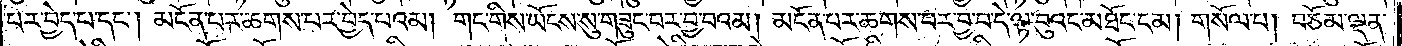པར་བྱེད་པ་དང༌། མངོན་པར་ཆགས་པར་བྱེད་པའམ། གང་གིས་ཡོངས་སུ་གཟུང་བར་བྱ་བའམ། མངོན་པར་ཆགས་པར་བྱ་བ་དེ་ལྟ་བུའང་མཐོང་ངམ། གསོལ་པ། བཅོམ་ལྡན་
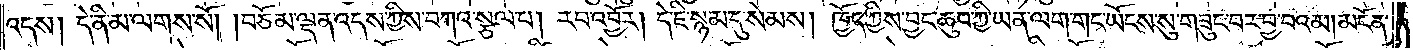འདས། དེ་ནི་མ་ལགས་སོ། །བཅོམ་ལྡན་འདས་ཀྱིས་བཀའ་སྩལ་པ། རབ་འབྱོར། དེ་ཇི་སྙམ་དུ་སེམས། ཁྱོད་ཀྱིས་བྱང་ཆུབ་ཀྱི་ཡན་ལག་གང་ཡོངས་སུ་གཟུང་བར་བྱ་བའམ། མངོན་
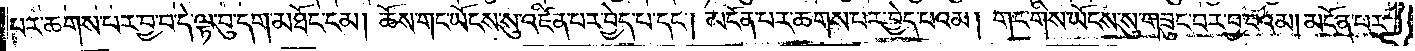པར་ཆགས་པར་བྱ་བ་དེ་ལྟ་བུ་དག་མཐོང་ངམ། ཆོས་གང་ཡོངས་སུ་འཛིན་པར་བྱེད་པ་དང༌། མངོན་པར་ཆགས་པར་བྱེད་བའམ། གང་གིས་ཡོངས་སུ་གཟུང་བར་བྱ་བའམ། མངོན་པར་
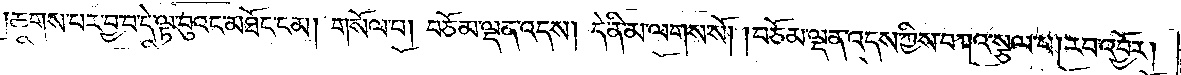ཆགས་པར་བྱ་བ་དེ་ལྟ་བུའང་མཐོང་ངམ། གསོལ་པ། བཅོམ་ལྡན་འདས། དེ་ནི་མ་ལགས་སོ། །བཅོམ་ལྡན་འདས་ཀྱིས་བཀའ་སྩལ་པ། རབ་འབྱོར།
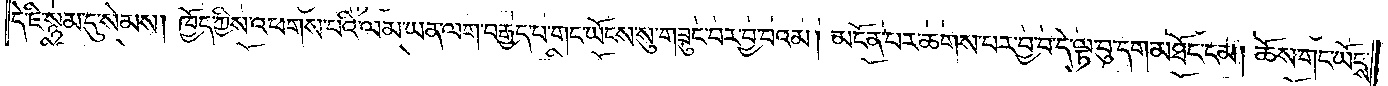དེ་ཇི་སྙམ་དུ་སེམས། ཁྱོད་ཀྱིས་འཕགས་པའི་ལམ་ཡན་ལག་བརྒྱད་པ་གང་ཡོངས་སུ་གཟུང་བར་བྱ་བའམ། མངོན་པར་ཆགས་པར་བྱ་བ་དེ་ལྟ་བུ་དག་མཐོང་ངམ། ཆོས་གང་ཡོངས་
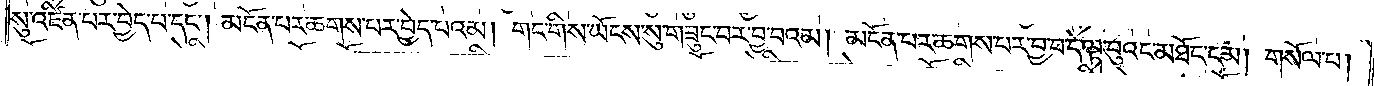སུ་འཛིན་པར་བྱེད་པ་དང༌། མངོན་པར་ཆགས་པར་བྱེད་པའམ། གང་གིས་ཡོངས་སུ་གཟུང་བར་བྱ་བའམ། མངོན་པར་ཆགས་པར་བྱ་བ་དེ་ལྟ་བུའང་མཐོང་ངམ། གསོལ་པ།
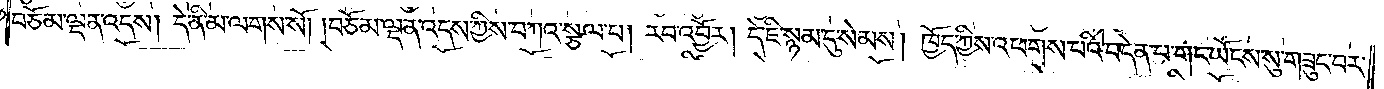བཅོམ་ལྡན་འདས། དེ་ནི་མ་ལགས་སོ། །བཅོམ་ལྡན་འདས་ཀྱིས་བཀའ་སྩལ་པ། རབ་འབྱོར། དེ་ཇི་སྙམ་དུ་སེམས། ཁྱོད་ཀྱིས་འཕགས་པའི་བདེན་པ་གང་ཡོངས་སུ་གཟུང་བར་
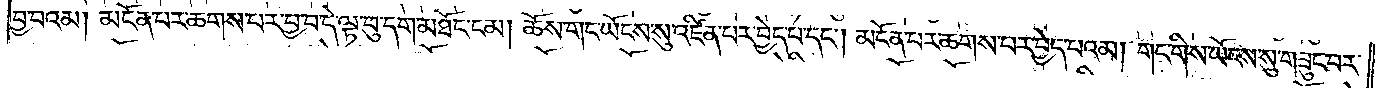བྱ་བའམ། མངོན་པར་ཆགས་པར་བྱ་བ་དེ་ལྟ་བུ་དག་མཐོང་ངམ། ཆོས་གང་ཡོངས་སུ་འཛིན་པར་བྱེད་པ་དང༌། མངོན་པར་ཆགས་པར་བྱེད་པའམ། གང་གིས་ཡོངས་སུ་གཟུང་བར་
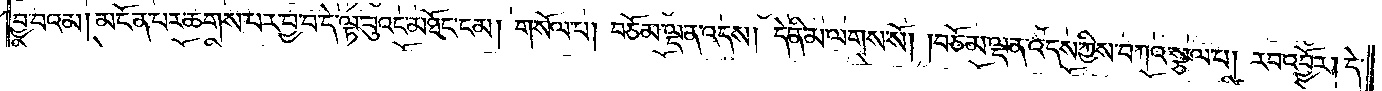བྱ་བའམ། མངོན་པར་ཆགས་པར་བྱ་བ་དེ་ལྟ་བུའང་མཐོང་ངམ། གསོལ་པ། བཅོམ་ལྡན་འདས། དེ་ནི་མ་ལགས་སོ། །བཅོམ་ལྡན་འདས་ཀྱིས་བཀའ་སྩལ་པ། རབ་འབྱོར། དེ་
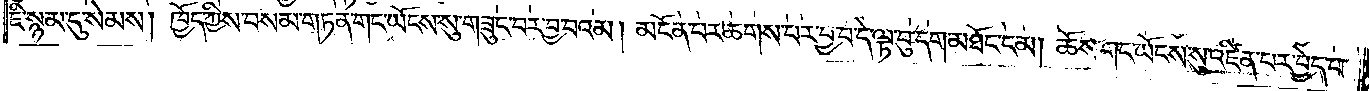ཇི་སྙམ་དུ་སེམས། ཁྱོད་ཀྱིས་བསམ་གཏན་གང་ཡོངས་སུ་གཟུང་བར་བྱ་བའམ། མངོན་པར་ཆགས་པར་བྱ་བ་དེ་ལྟ་བུ་དག་མཐོང་ངམ། ཆོས་གང་ཡོངས་སུ་འཛིན་པར་བྱེད་པ་
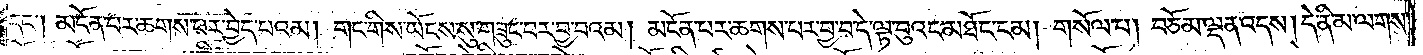དང༌། མངོན་པར་ཆགས་པར་བྱེད་པའམ། གང་གིས་ཡོངས་སུ་གཟུང་བར་བྱ་བའམ། མངོན་པར་ཆགས་པར་བྱ་བ་དེ་ལྟ་བུའང་མཐོང་ངམ། གསོལ་པ། བཅོམ་ལྡན་འདས། དེ་ནི་མ་ལགས་
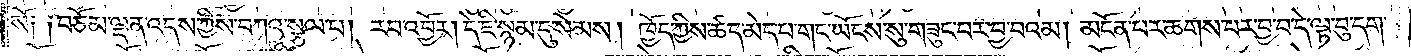སོ། །བཅོམ་ལྡན་འདས་ཀྱིས་བཀའ་སྩལ་པ། རབ་འབྱོར། དེ་ཇི་སྙམ་དུ་སེམས། ཁྱོད་ཀྱིས་ཚད་མེད་པ་གང་ཡོངས་སུ་གཟུང་བར་བྱ་བའམ། མངོན་པར་ཆགས་པར་བྱ་བ་དེ་ལྟ་བུ་དག་
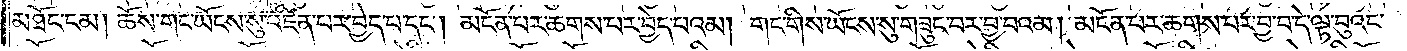མཐོང་ངམ། ཆོས་གང་ཡོངས་སུ་འཛིན་པར་བྱེད་པ་དང༌། མངོན་པར་ཆགས་པར་བྱེད་པའམ། གང་གིས་ཡོངས་སུ་གཟུང་བར་བྱ་བའམ། མངོན་པར་ཆགས་པར་བྱ་བ་དེ་ལྟ་བུའང་
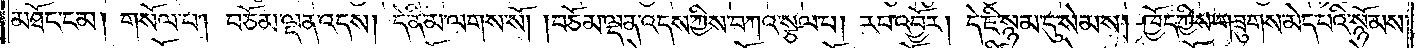མཐོང་ངམ། གསོལ་པ། བཅོམ་ལྡན་འདས། དེ་ནི་མ་ལགས་སོ། །བཅོམ་ལྡན་འདས་ཀྱིས་བཀའ་སྩལ་པ། རབ་འབྱོར། དེ་ཇི་སྙམ་དུ་སེམས། ཁྱོད་ཀྱིས་གཟུགས་མེད་པའི་སྙོམས་
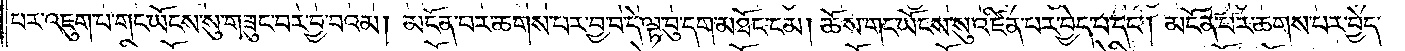པར་འཇུག་པ་གང་ཡོངས་སུ་གཟུང་བར་བྱ་བའམ། མངོན་པར་ཆགས་པར་བྱ་བ་དེ་ལྟ་བུ་དག་མཐོང་ངམ། ཆོས་གང་ཡོངས་སུ་འཛིན་པར་བྱེད་པ་དང༌། མངོན་པར་ཆགས་པར་བྱེད་
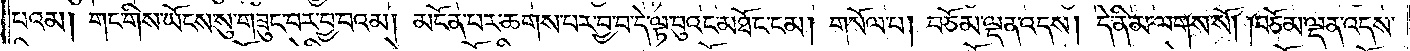པའམ། གང་གིས་ཡོངས་སུ་གཟུང་བར་བྱ་བའམ། མངོན་པར་ཆགས་པར་བྱ་བ་དེ་ལྟ་བུའང་མཐོང་ངམ། གསོལ་པ། བཅོམ་ལྡན་འདས། དེ་ནི་མ་ལགས་སོ། །བཅོམ་ལྡན་འདས་
